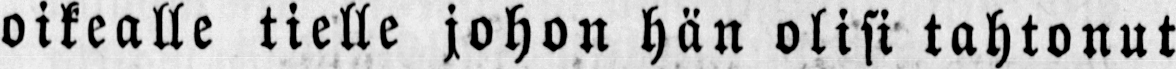oikealle tielle johon hän olisi tahtonut
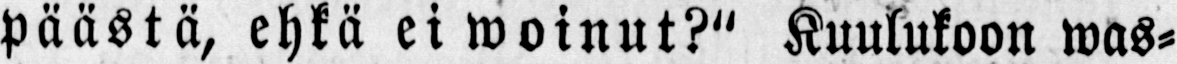Päästä, ehkä ei woinut?" Kuulukoon was-
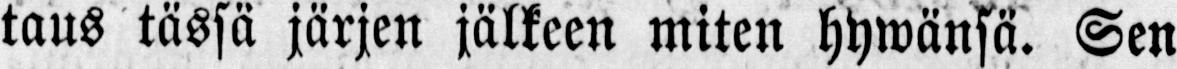taus tässä järjen jälkeen miten hywänsä. Sen
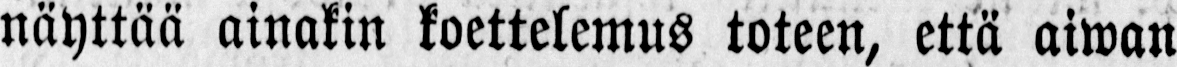näyttää ainakin koettelemus toteen, että aiwan
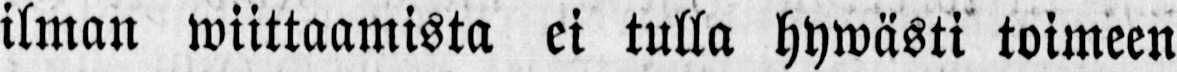ilman wiittaamista ei tulla hywästi toimeen
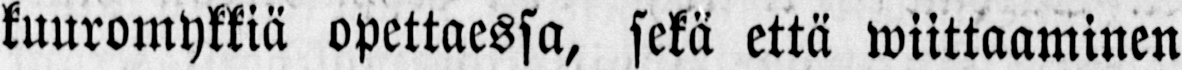kuuromykkiä opettaessa, sekä että wiittaaminen
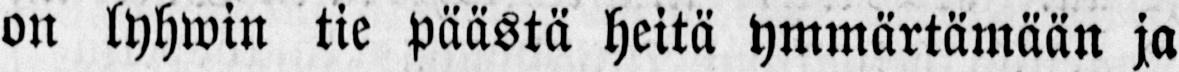on lyhwin tie päästä heitä ymmärtämään ja
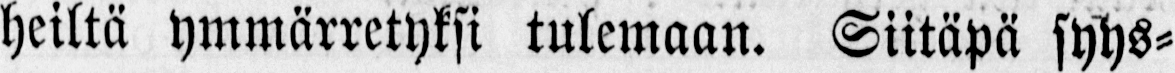heiltä ymmärretyksi tulemaan. Siitäpä syys-
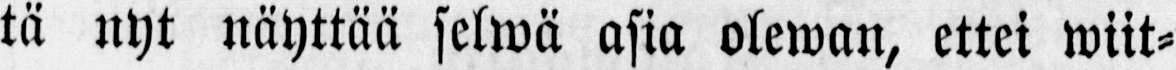tä nyt näyttää selwä asia olewan, ettei wiit-
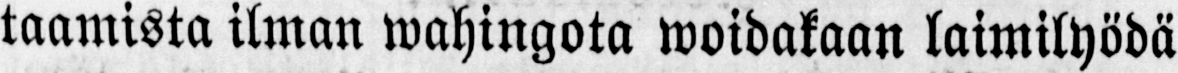taamista ilman wahingota woidakaan laimilyödä
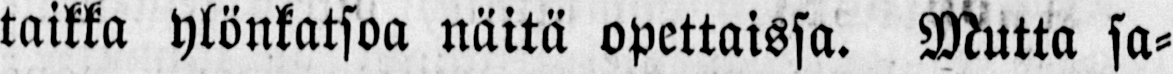taikka ylönkatsoa näitä opettaissa. Mutta sa-
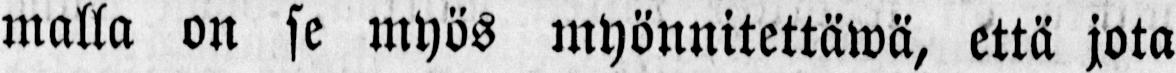malla on se myös myönnitettäwä, että jota
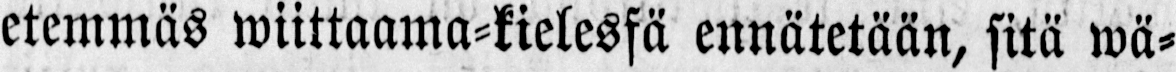etemmäs wiittaama-kielessä ennätetään, sitä wä-
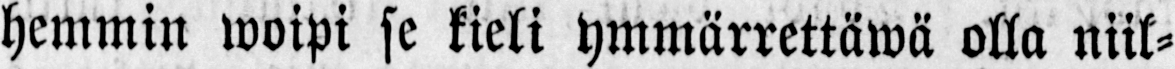hemmin woipi se kieli ymmärrettäwä olla niil-
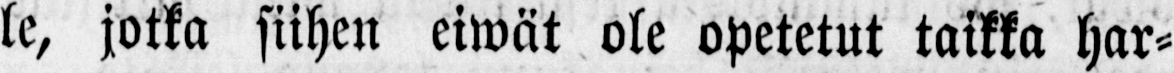le, jotka siihen eiwät ole opetetut taikka har-
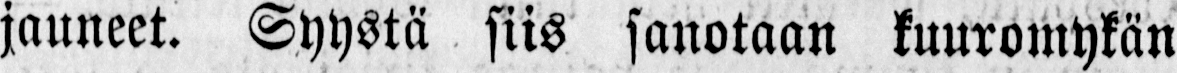jauneet. Syystä siis sanotaan kuuromykän
